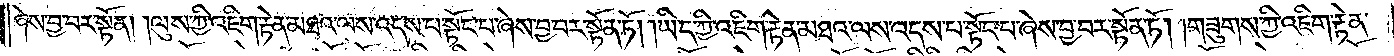ཞེས་བྱ་བར་སྟོན་ཏོ། །ལུས་ཀྱི་འཇིག་རྟེན་མཐའ་ལས་འདས་པ་སྟོང་པ་ཞེས་བྱ་བར་སྟོན་ཏོ། །ཡིད་ཀྱི་འཇིག་རྟེན་མཐའ་ལས་འདས་པ་སྟོང་པ་ཞེས་བྱ་བར་སྟོན་ཏོ། །གཟུགས་ཀྱི་འཇིག་རྟེན་
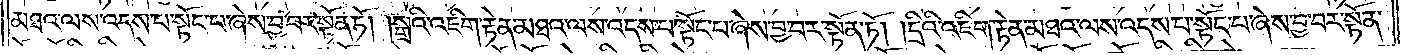མཐའ་ལས་འདས་པ་སྟོང་པ་ཞེས་བྱ་བར་སྟོན་ཏོ། །སྒྲའི་འཇིག་རྟེན་མཐའ་ལས་འདས་པ་སྟོང་པ་ཞེས་བྱ་བར་སྟོན་ཏོ། །དྲིའི་འཇིག་རྟེན་མཐའ་ལས་འདས་པ་སྟོང་པ་ཞེས་བྱ་བར་སྟོན་
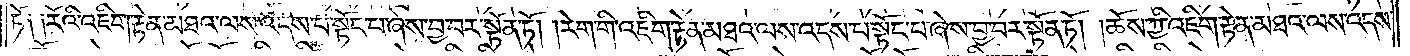ཏོ༑ ༑རོའི་འཇིག་རྟེན་མཐའ་ལས་འདས་པ་སྟོང་པ་ཞེས་བྱ་བར་སྟོན་ཏོ། །རེག་གི་འཇིག་རྟེན་མཐའ་ལས་འདས་པ་སྟོང་པ་ཞེས་བྱ་བར་སྟོན་ཏོ། །ཆོས་ཀྱི་འཇིག་རྟེན་མཐའ་ལས་འདས་
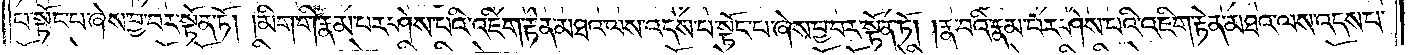པ་སྟོང་པ་ཞེས་བྱ་བར་སྟོན་ཏོ། །མིག་གི་རྣམ་པར་ཤེས་པའི་འཇིག་རྟེན་མཐའ་ལས་འདས་པ་སྟོང་པ་ཞེས་བྱ་བར་སྟོན་ཏོ། །རྣ་བའི་རྣམ་པར་ཤེས་པའི་འཇིག་རྟེན་མཐའ་ལས་འདས་པ་
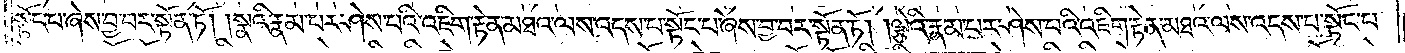སྟོང་པ་ཞེས་བྱ་བར་སྟོན་ཏོ། །སྣའི་རྣམ་པར་ཤེས་པའི་འཇིག་རྟེན་མཐའ་ལས་འདས་པ་སྟོང་པ་ཞེས་བྱ་བར་སྟོན་ཏོ། །ལྕེའི་རྣམ་པར་ཤེས་པའི་འཇིག་རྟེན་མཐའ་ལས་འདས་པ་སྟོང་པ་
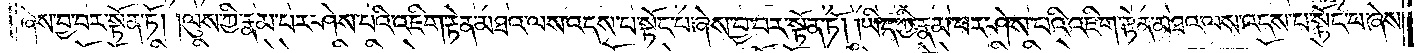ཞེས་བྱ་བར་སྟོན་ཏོ། །ལུས་ཀྱི་རྣམ་པར་ཤེས་པའི་འཇིག་རྟེན་མཐའ་ལས་འདས་པ་སྟོང་པ་ཞེས་བྱ་བར་སྟོན་ཏོ། །ཡིད་ཀྱི་རྣམ་པར་ཤེས་པའི་འཇིག་རྟེན་མཐའ་ལས་འདས་པ་སྟོང་པ་ཞེས་
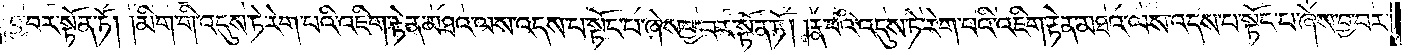བྱ་བར་སྟོན་ཏོ། །མིག་གི་འདུས་ཏེ་རེག་པའི་འཇིག་རྟེན་མཐའ་ལས་འདས་པ་སྟོང་པ་ཞེས་བྱ་བར་སྟོན་ཏོ། །རྣ་བའི་འདུས་ཏེ་རེག་པའི་འཇིག་རྟེན་མཐའ་ལས་འདས་པ་སྟོང་པ་ཞེས་བྱ་བར་
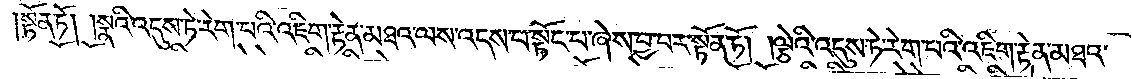སྟོན་ཏོ། །སྣའི་འདུས་ཏེ་རེག་པའི་འཇིག་རྟེན་མཐའ་ལས་འདས་པ་སྟོང་པ་ཞེས་བྱ་བར་སྟོན་ཏོ། །ལྕེའི་འདུས་ཏེ་རེག་པའི་འཇིག་རྟེན་མཐའ་
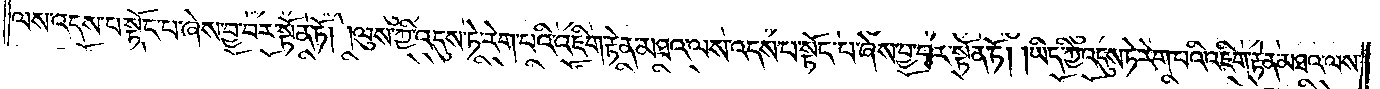ལས་འདས་པ་སྟོང་པ་ཞེས་བྱ་བར་སྟོན་ཏོ། །ལུས་ཀྱི་འདུས་ཏེ་རེག་པའི་འཇིག་རྟེན་མཐའ་ལས་འདས་པ་སྟོང་པ་ཞེས་བྱ་བར་སྟོན་ཏོ། །ཡིད་ཀྱི་འདུས་ཏེ་རེག་པའི་འཇིག་རྟེན་མཐའ་ལས་
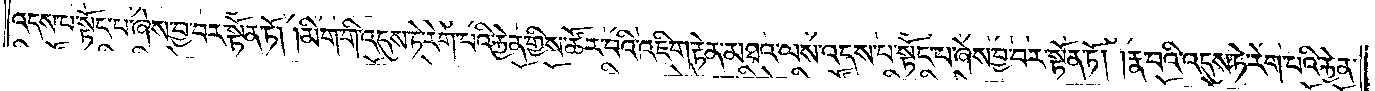འདས་པ་སྟོང་པ་ཞེས་བྱ་བར་སྟོན་ཏོ། །མིག་གི་འདུས་ཏེ་རེག་པའི་རྐྱེན་གྱིས་ཚོར་བའི་འཇིག་རྟེན་མཐའ་ལས་འདས་པ་སྟོང་པ་ཞེས་བྱ་བར་སྟོན་ཏོ། །རྣ་བའི་འདུས་ཏེ་རེག་པའི་རྐྱེན་
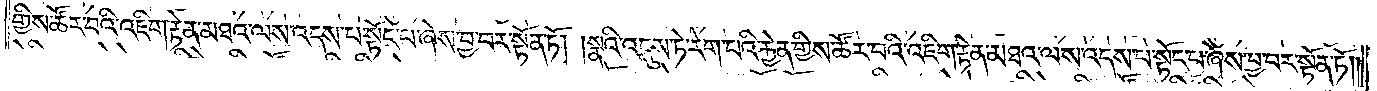གྱིས་ཚོར་བའི་འཇིག་རྟེན་མཐའ་ལས་འདས་པ་སྟོང་པ་ཞེས་བྱ་བར་སྟོན་ཏོ། །སྣའི་འདུས་ཏེ་རེག་པའི་རྐྱེན་གྱིས་ཚོར་བའི་འཇིག་རྟེན་མཐའ་ལས་འདས་པ་སྟོང་པ་ཞེས་བྱ་བར་སྟོན་ཏོ། །
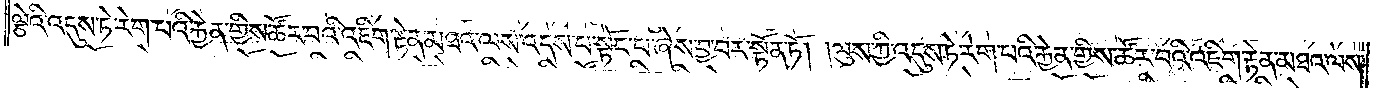ལྕེའི་འདུས་ཏེ་རེག་པའི་རྐྱེན་གྱིས་ཚོར་བའི་འཇིག་རྟེན་མཐའ་ལས་འདས་པ་སྟོང་པ་ཞེས་བྱ་བར་སྟོན་ཏོ། །ལུས་ཀྱི་འདུས་ཏེ་རེག་པའི་རྐྱེན་གྱིས་ཚོར་བའི་འཇིག་རྟེན་མཐའ་ལས་
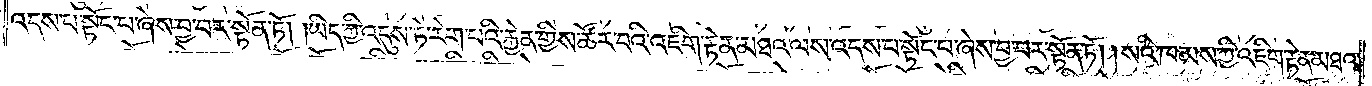འདས་པ་སྟོང་པ་ཞེས་བྱ་བར་སྟོན་ཏོ། །ཡིད་ཀྱི་འདུས་ཏེ་རེག་པའི་རྐྱེན་གྱིས་ཚོར་བའི་འཇིག་རྟེན་མཐའ་ལས་འདས་པ་སྟོང་པ་ཞེས་བྱ་བར་སྟོན་ཏོ། །སའི་ཁམས་ཀྱི་འཇིག་རྟེན་མཐའ་
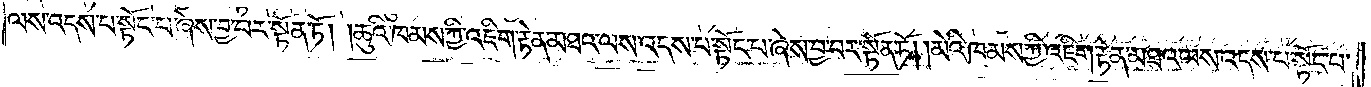ལས་འདས་པ་སྟོང་པ་ཞེས་བྱ་བར་སྟོན་ཏོ། །ཆུའི་ཁམས་ཀྱི་འཇིག་རྟེན་མཐའ་ལས་འདས་པ་སྟོང་པ་ཞེས་བྱ་བར་སྟོན་ཏོ། །མེའི་ཁམས་ཀྱི་འཇིག་རྟེན་མཐའ་ལས་འདས་པ་སྟོང་པ་
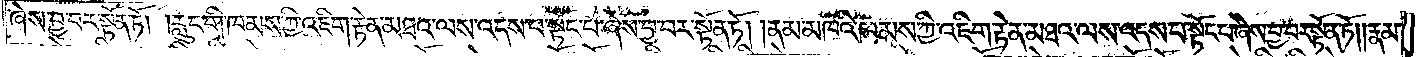ཞེས་བྱ་བར་སྟོན་ཏོ། །རླུང་གི་ཁམས་ཀྱི་འཇིག་རྟེན་མཐའ་ལས་འདས་པ་སྟོང་པ་ཞེས་བྱ་བར་སྟོན་ཏོ། །ནམ་མཁའི་ཁམས་ཀྱི་འཇིག་རྟེན་མཐའ་ལས་འདས་པ་སྟོང་པ་ཞེས་བྱ་བར་སྟོན་ཏོ། །རྣམ་
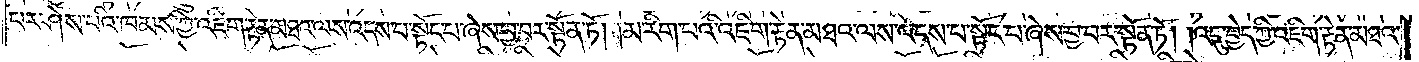པར་ཤེས་པའི་ཁམས་ཀྱི་འཇིག་རྟེན་མཐའ་ལས་འདས་པ་སྟོང་པ་ཞེས་བྱ་བར་སྟོན་ཏོ། །མ་རིག་པའི་འཇིག་རྟེན་མཐའ་ལས་འདས་པ་སྟོང་པ་ཞེས་བྱ་བར་སྟོན་ཏོ། །འདུ་བྱེད་ཀྱི་འཇིག་རྟེན་མཐའ་
